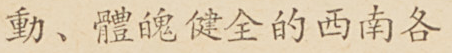動、體魄健全的西南各
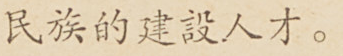民族的建設人才。
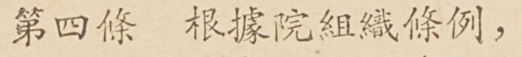第四條 根據院組織條例，
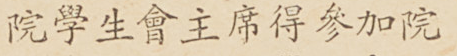院學生會主席得參加院
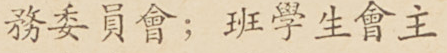務委員會；班學生會主
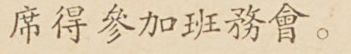席得參加班務會。
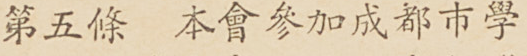第五條 本會參加成都市學
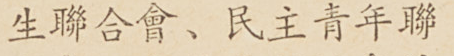生聯合會、民主青年聯
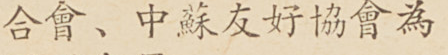合會、中蘇友好協會為
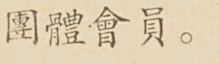團體會員。
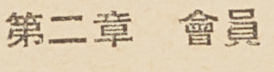第二章 會員
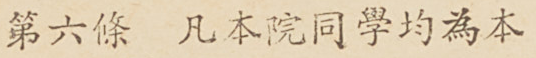第六條 凡本院同學均為本
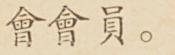會會員。
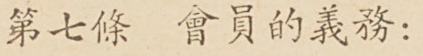第七條 會員的義務：
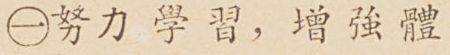㊀努力學習，增強體
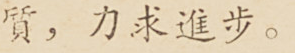質，力求進步。
